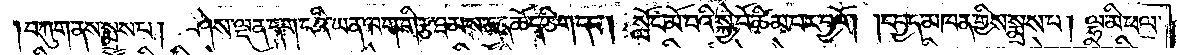།བཀུག་ནས་སྨྲས་པ། ཤེས་ལྡན་དག་ངའི་ཡན་ལག་གི་རྩ་ཐམས་ཅད་ཆོད་ཅིག་དང༌། སློང་མོ་བའི་སྐྱེ་བོ་ཚིམ་པར་བྱའོ། །དཔྱད་མཁན་གྱིས་སྨྲས་པ། ལྷ་མི་ཕལ་
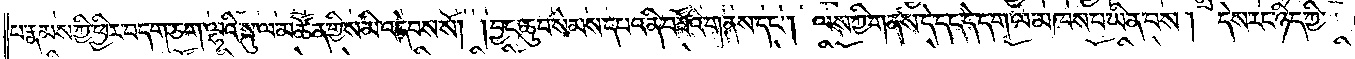པ་རྣམས་ཀྱི་ཕྱིར་བདག་ཅག་ལྷའི་སྐུ་ལ་མཚོན་གྱིས་མི་འདེབས་སོ། །བྱང་ཆུབ་སེམས་དཔའ་ནི་བཟོའི་གནས་དང༌། ལས་ཀྱི་གནས་དེ་དང་དེ་དག་ལ་མཁས་པ་ཡིན་པས། དེས་རང་ཉིད་ཀྱི་
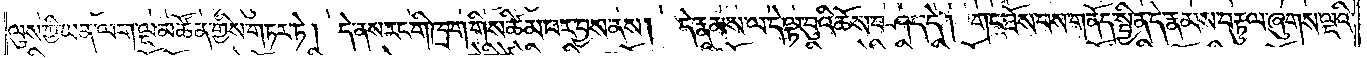ལུས་ཀྱི་ཡན་ལག་ལྔ་མཚོན་གྱིས་གཏར་ཏེ། དེ་ནས་རང་གི་ཁྲག་གིས་ཚིམ་པར་བྱས་ནས། དེ་རྣམས་ལ་དེ་ལྟ་བུའི་ཆོས་བཤད་དེ། གང་ཐོས་པས་གནོད་སྦྱིན་དེ་རྣམས་བརྟུལ་ཞུགས་ལྔའི་
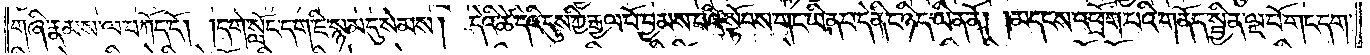གཞི་རྣམས་ལ་བཀོད་དོ། །དགེ་སློང་དག་ཇི་སྙམ་དུ་སེམས། དེའི་ཚེ་དེའི་དུས་ཀྱི་རྒྱལ་པོ་བྱམས་པའི་སྟོབས་གང་ཡིན་པ་དེ་ནི་ང་ཉིད་ཡིན་ནོ། །མདངས་འཕྲོག་པའི་གནོད་སྦྱིན་ལྔ་པོ་གང་དག་
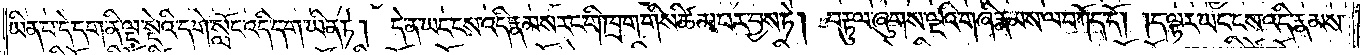ཡིན་པ་དེ་དག་ནི་ལྔ་སྡེའི་དགེ་སློང་འདི་དག་ཡིན་ཏེ། དེ་ན་ཡང་ངས་འདི་རྣམས་རང་གི་ཁྲག་གིས་ཚིམ་པར་བྱས་ཏེ། བརྟུལ་ཞུགས་ལྔའི་གཞི་རྣམས་ལ་བཀོད་དོ། །ད་ལྟར་ཡང་ངས་འདི་རྣམས་
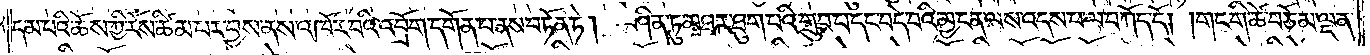དམ་པའི་ཆོས་ཀྱི་རོས་ཚིམ་པར་བྱས་ནས་འཁོར་བའི་འབྲོག་དགོན་པ་ནས་བཏོན་ཏེ། ཤིན་ཏུ་མཐར་ཐུག་པའི་གྲུབ་པ་དང་བདེ་བའི་མྱ་ངན་ལས་འདས་པ་ལ་བཀོད་དོ། །གང་གི་ཚེ་བཅོམ་ལྡན་
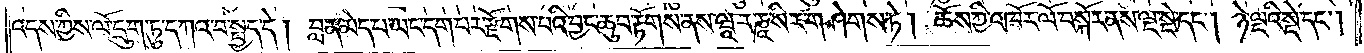འདས་ཀྱིས་ལོ་དྲུག་ཏུ་དཀའ་བ་སྤྱད་དེ། བླ་ན་མེད་པ་ཡང་དག་པར་རྫོགས་པའི་བྱང་ཆུབ་རྟོགས་ནས་ཝཱ་ར་ཎཱ་སིར་གཤེགས་ཏེ། ཆོས་ཀྱི་འཁོར་ལོ་བསྐོར་ནས་ལྔ་སྡེ་དང༌། ཉེ་ལྔའི་སྡེ་དང༌།
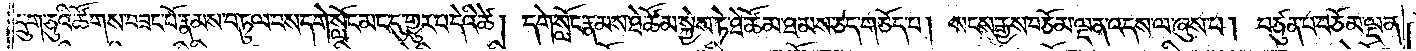དྲུག་ཅུའི་ཚོགས་བཟང་པོ་རྣམས་བཏུལ་བས་དགེ་སློང་མང་དུ་གྱུར་པ་དེའི་ཚེ། དགེ་སློང་རྣམས་ཐེ་ཚོམ་སྐྱེས་ཏེ་ཐེ་ཚོམ་ཐམས་ཅད་གཅོད་པ། སངས་རྒྱས་བཅོམ་ལྡན་འདས་ལ་ཞུས་པ། བཙུན་པ་བཅོམ་ལྡན་
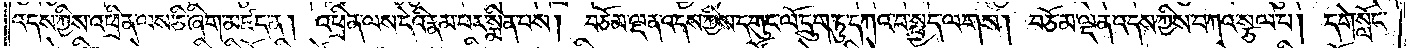འདས་ཀྱིས་འཕྲིན་ལས་ཅི་ཞིག་མཛད་ན། འཕྲིན་ལས་དེའི་རྣམ་པར་སྨིན་པས། བཅོམ་ལྡན་འདས་ཀྱིས་དགུང་ལོ་དྲུག་ཏུ་དཀའ་བ་སྤྱད་ལགས། བཅོམ་ལྡན་འདས་ཀྱིས་བཀའ་སྩལ་པ། དགེ་སློང་
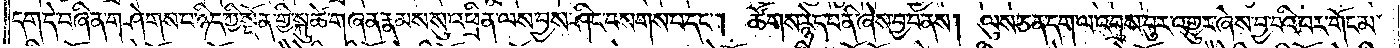དག་དེ་བཞིན་གཤེགས་པ་ཉིད་ཀྱི་སྔོན་གྱི་སྐུ་ཚེ་གཞན་རྣམས་སུ་འཕྲིན་ལས་བྱས་ཤིང་བསགས་པ་དང༌། ཚོགས་རྙེད་པ་ནི་ཞེས་བྱ་བ་ནས། ལུས་ཅན་དག་ལ་འབྲས་བུར་འགྱུར་ཞེས་བྱ་བའི་བར་གོང་མ་
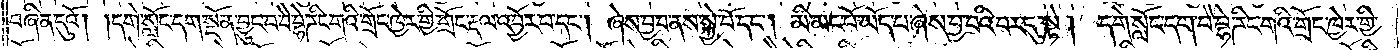བཞིན་དུའོ། །དགེ་སློང་དག་སྔོན་བྱུང་བ་བཻ་བྷཻ་ཌིང་གའི་གྲོང་ཁྱེར་གྱི་གྲོང་རྡལ་འབྱོར་བ་དང༌། ཞེས་བྱ་བ་ནས་སྐྱེ་བོ་དང༌། མི་མང་པོ་ཡོད་པ་ཞེས་བྱ་བའི་བར་དུ་སྟེ། དགེ་སློང་དག་བཻ་བྷཻ་ཌིང་གའི་གྲོང་ཁྱེར་གྱི་
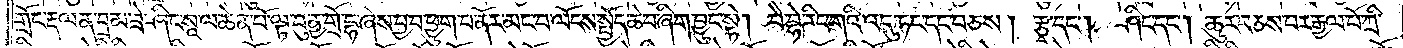གྲོང་རྡལ་ན་བྲམ་ཟེ་ཤིང་སཱ་ལ་ཆེན་པོ་ལྟ་བུ་ནྱ་གྲོ་དྷ་ཞེས་བྱ་བ་ཕྱུག་པ་ནོར་མང་བ་ལོངས་སྤྱོད་ཆེ་བ་ཞིག་བྱུང་སྟེ། བཻ་བྷེ་ཌིང་གའི་འདུ་ཏང་དང་བཅས། རྩྭ་དང༌། ཤིང་དང༌། ཆུར་བཅས་པར་རྒྱལ་པོ་ཀྲི་
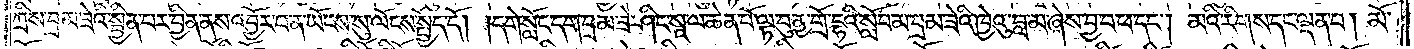ཀྲིས་བྲམ་ཟེའི་སྦྱིན་པར་བྱིན་ནས་འབྱོར་བ་ན་ཡོངས་སུ་ལོངས་སྤྱོད་དོ། །དགེ་སློང་དག་བྲམ་ཟེ་ཤིང་སཱ་ལ་ཆེན་པོ་ལྟ་བུ་ནྱ་གྲོ་དྷའི་སློབ་མ་བྲམ་ཟེའི་ཁྱེའུ་བླ་མ་ཞེས་བྱ་བ་ཕ་དང༌། མའི་རིགས་དང་ལྡན་པ། མོ་
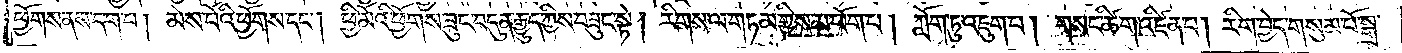ཕྱོགས་ནས་དག་པ། མེས་པོའི་ཕྱོགས་དང༌། ཕྱི་མོའི་ཕྱོགས་ཟུང་བདུན་རྒྱུད་ཀྱིས་བཟུང་སྟེ། རིགས་ལ་གཏམ་གྱིས་མ་ཕོག་པ། ཀློག་ཏུ་འཇུག་པ། གསང་ཚིག་འཛིན་པ། རིག་བྱེད་གསུམ་པོ་སྒྲ་
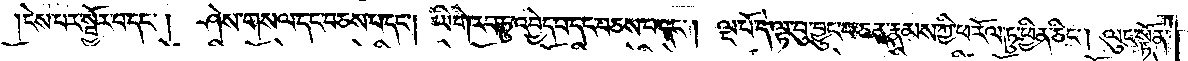ངེས་པར་སྦྱོར་བ་དང༌།  ཤེས་གསལ་དང་བཅས་པ་དང༌། ཡི་གེ་རབ་ཏུ་འབྱེད་པ་དང་བཅས་པ་དང༌། ལྔ་པོ་དེ་ལྟ་བུ་བྱུང་བ་ཅན་རྣམས་ཀྱི་ཕ་རོལ་ཏུ་ཕྱིན་ཅིང༌། ལུང་སྟོན་
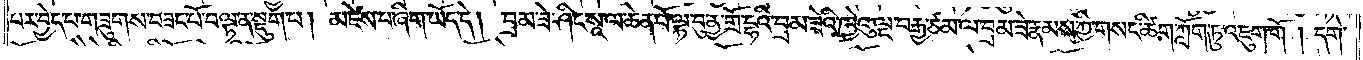པར་བྱེད་པ་གཟུགས་བཟང་པོ་བལྟ་ན་སྡུག་པ། མཛེས་པ་ཞིག་ཡོད་དེ། བྲམ་ཟེ་ཤིང་སཱ་ལ་ཆེན་པོ་ལྟ་བུ་ནྱ་གྲོ་དྷའི་བྲམ་ཟེའི་ཁྱེའུ་ལྔ་བརྒྱ་ཙམ་ལ་བྲམ་ཟེ་རྣམས་ཀྱི་གསང་ཚིག་ཀློག་ཏུ་འཇུག་གོ། དགེ་
